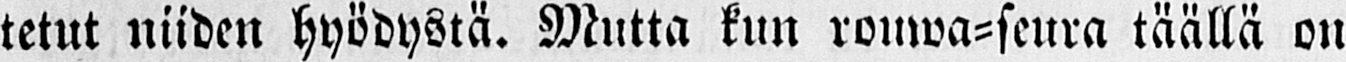tetut niiden hyödystä. Mutta kun rouwa-seura täällä on
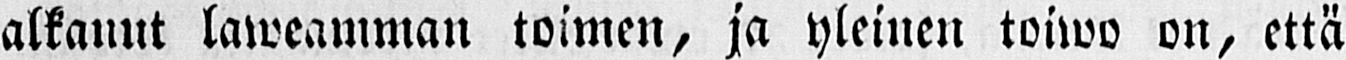alkanut laweamman toimen, ja yleinen toiwo on, että
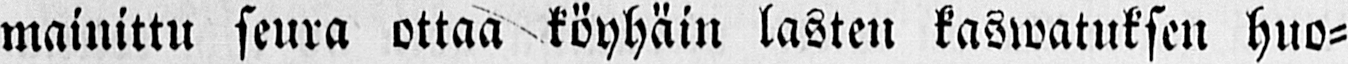mainittu seura ottaa köyhäin lasten kaswatuksen huo-
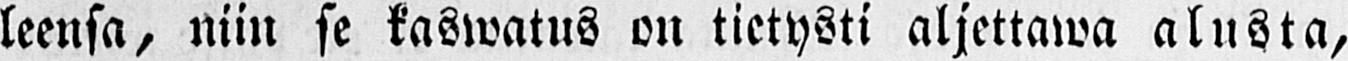leensa, niin se kaswatus on tietysti aljettawa alusta,
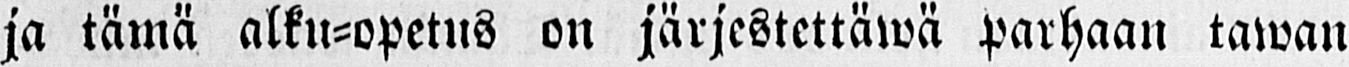ja tämä alku-opetus on järjestettäwä parhaan tawan
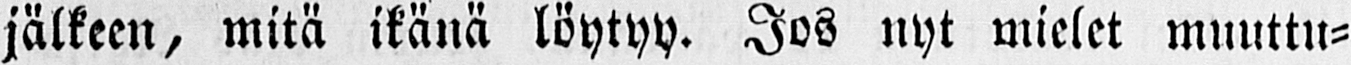jälkeen, mitä ikänä löytyy. Jos nyt mielet muuttu-
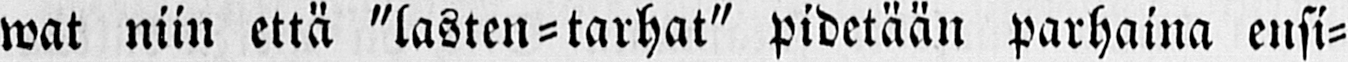wat niin että "lasten-tarhat" pidetään parhaina ensi-
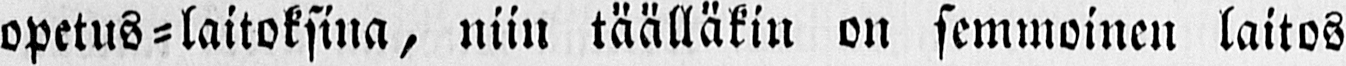opetus-laitoksina, niin täälläkin on semmoinen laitos
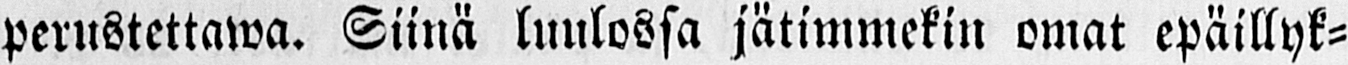perustettawa. Siinä luulossa jätimmekin omat epäillyk-
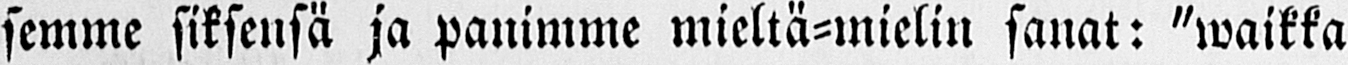semme siksensä ja panimme mieltä-mielin sanat: "waikka
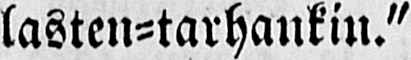lasten-tarhankin."
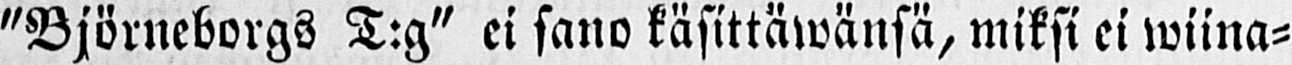"Björneborgs T:g" ei sano käsittäwänsä, miksi ei wiina-
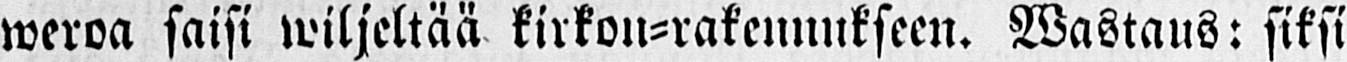weroa saisi wiljeltää kirkon-rakennukseen. Wastaus: siksi
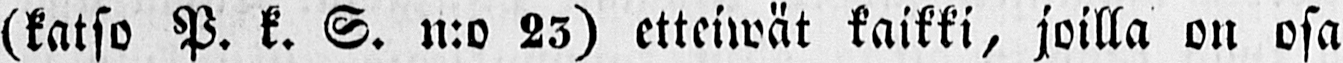(katso P. k. S. n:o 23) etteiwät kaikki, joilla on osa
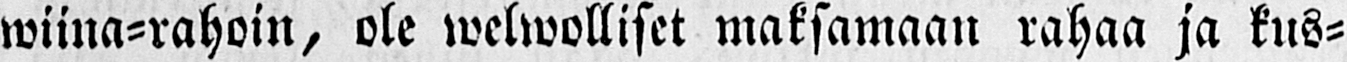wiina-rahoin, ole welwolliset maksamaan rahaa ja kus-
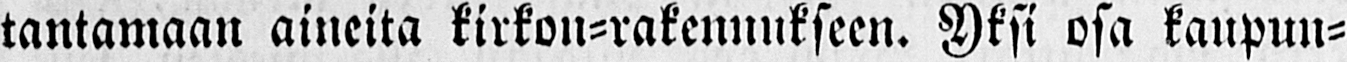tantamaan aineita kirkon-rakennukseen. Yksi osa kaupun-
